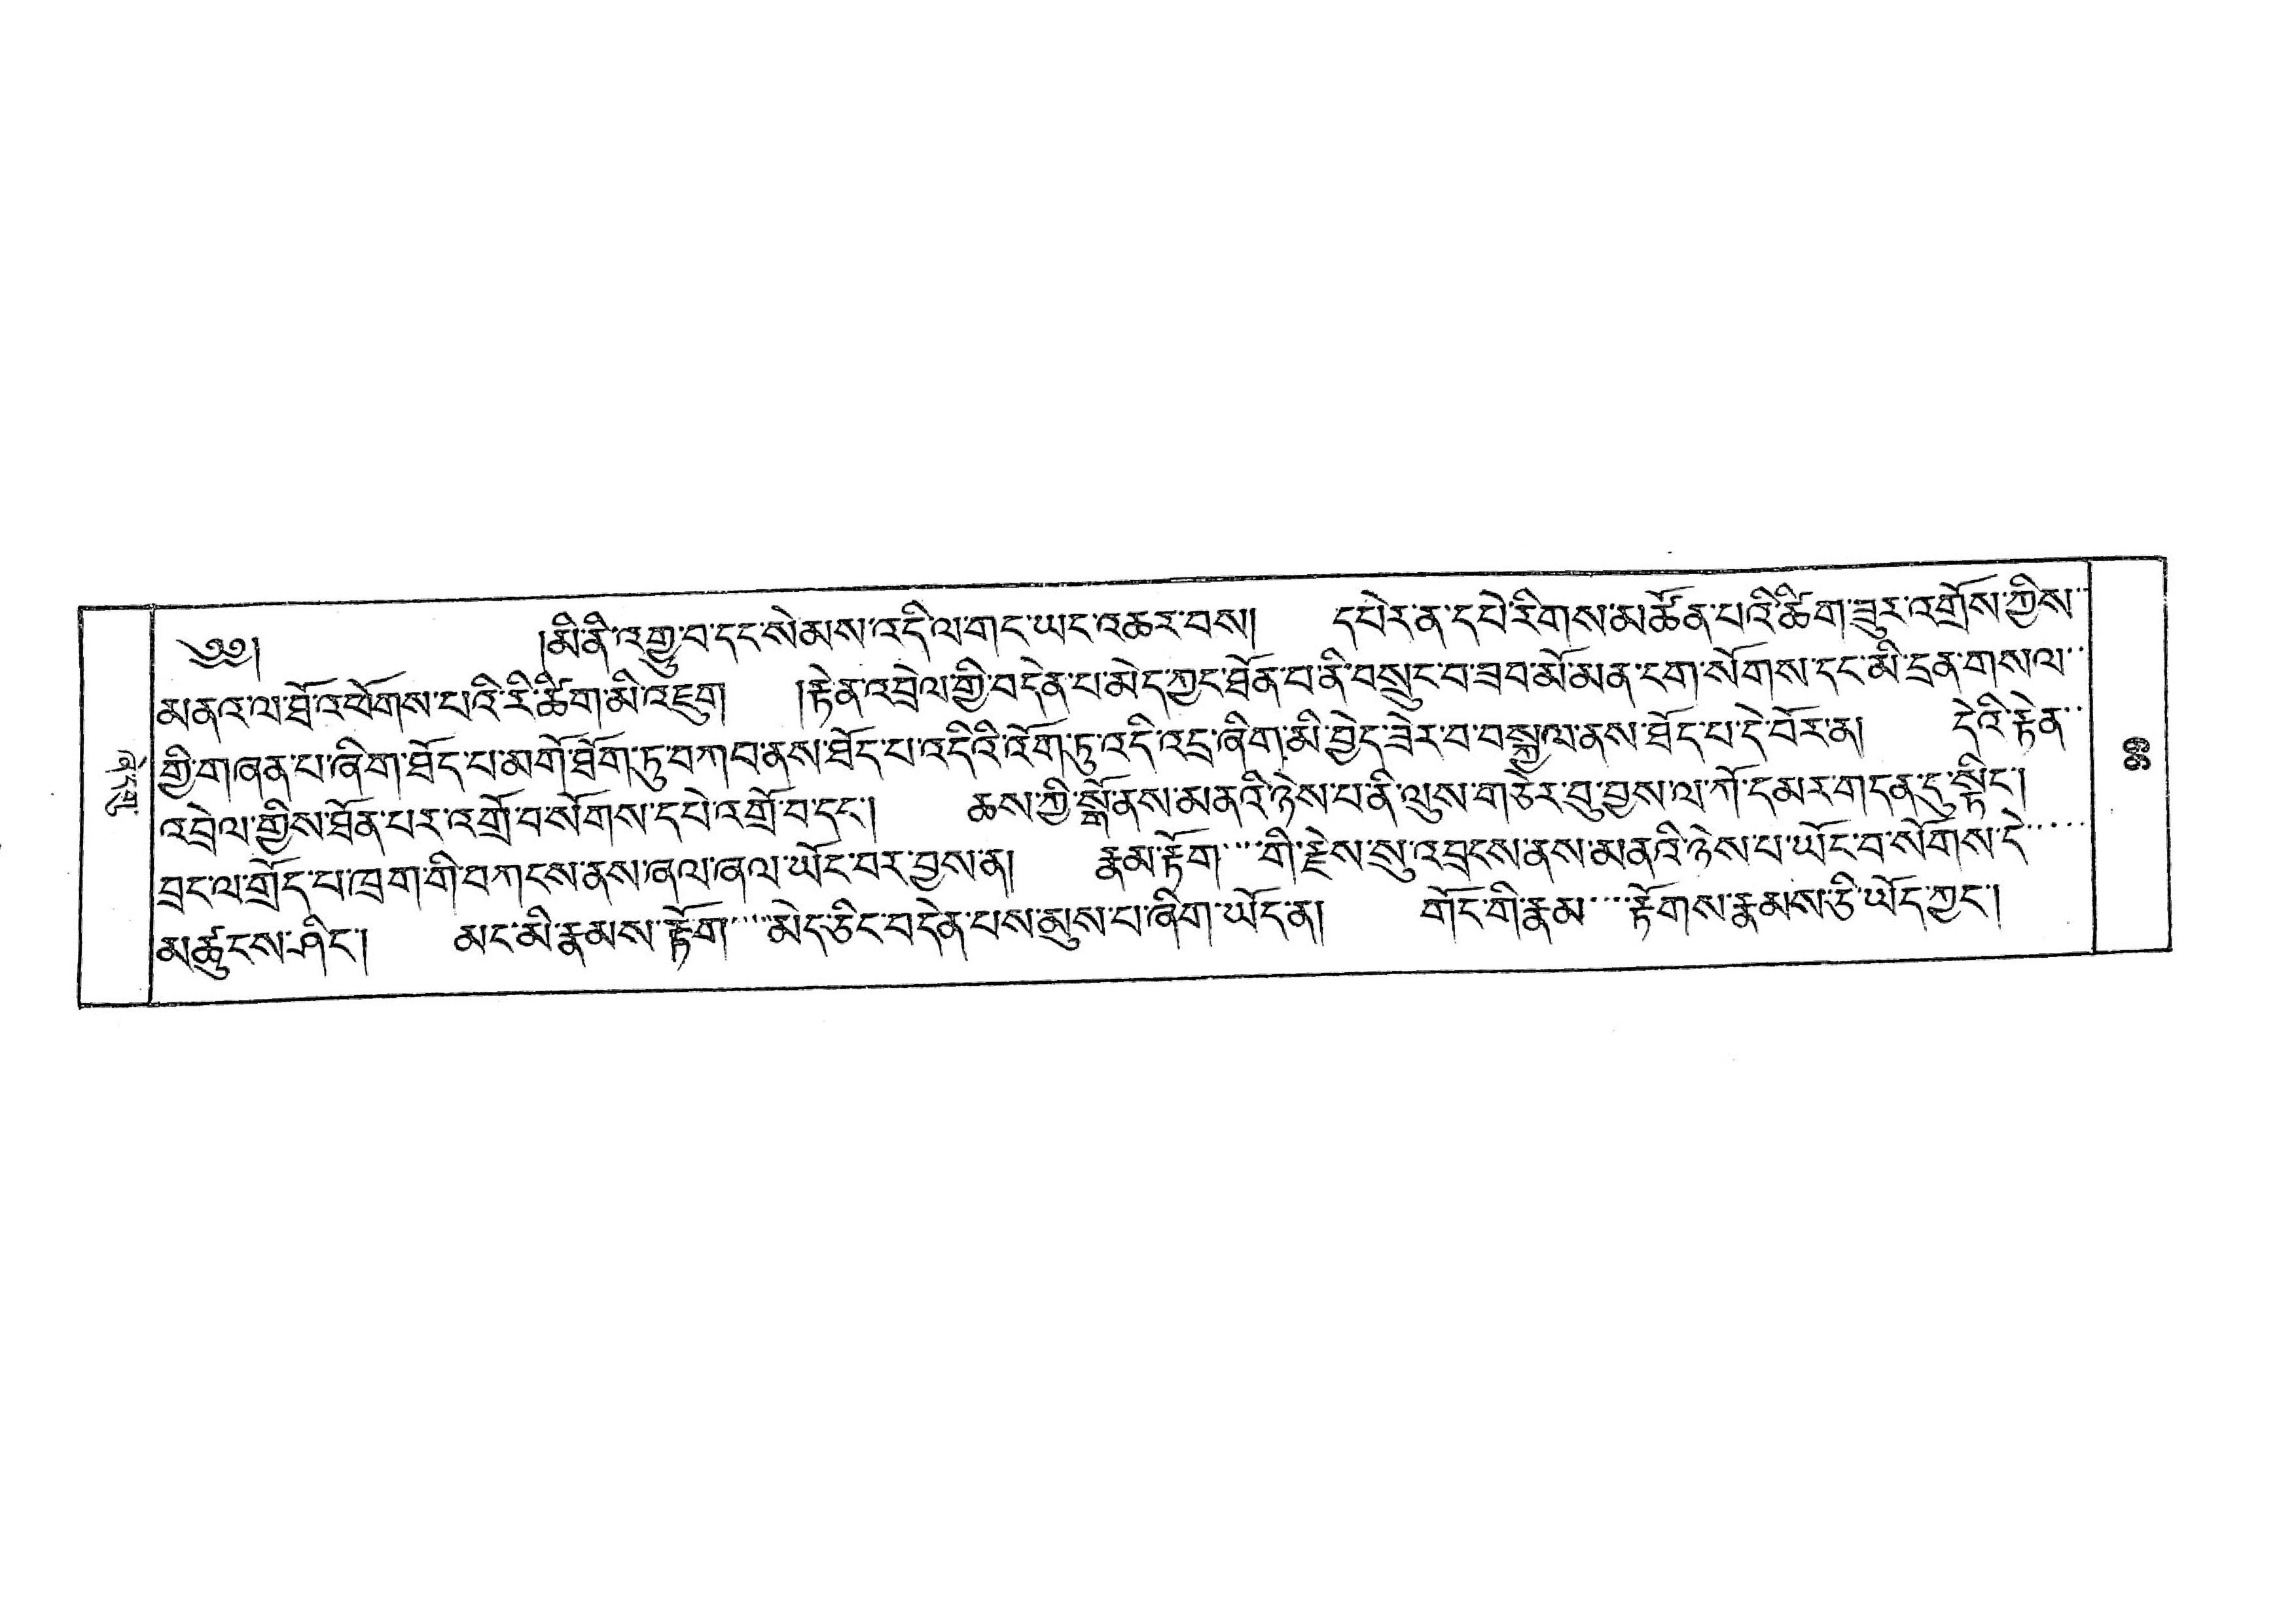ཞེ་དགུ་
༄༅།  །མི་ནི་འགྱུ་བ་དང་སེམས་འདི་ལ་གང་ཡང་འཆར་བས། དཔེར་ན་དཔེ་རིགས་མཚོན་པའི་ཚིག་ཟུར་འགྲིས་ཀྱིས་་
མནའ་ལ་ཐོ་འཕོགས་པའི་རི་ཚིག་མི་འཇུག །རྟེན་འབྲེལ་གྱི་བདེན་པ་མེད་ཀྱང་ཐོན་པ་ནི་བསྲུང་བ་ཟབ་མོ་མ་ན་ངག་སོགས་དང་མི་དྲན་གསལ་་
གྱི་གཞན་པ་ཞིག་ཐོད་པ་མགོ་ཐོག་ཏུ་བཀབ་ནས་ཐོད་པ་འདིའི་འོག་ཏུ་འདི་འདྲ་ཞིག་མི་བྱེད་ཟེར་བ་བསྐྱལ་ནས་ཐོད་པ་དེ་བོར་ན། དེའི་རྟེན་་
འབྲེལ་གྱིས་ཐོན་པར་འགྲོ་བ་སོགས་དཔེ་འགྲོ་བ་དང་། ཆས་ཀྱི་སྒོ་ནས་མནའི་ཉེས་པ་ནི་ལུས་གཅེར་བུ་བྱས་ལ་ཀོ་དམར་གདན་དུ་སྟིང་།
བྲང་ལ་གྲོད་པ་ཁྲག་གི་བཀངས་ནས་ཞལ་ཞལ་ཡོང་བར་བྱས་ན། རྣམ་རྟོག་་་་གི་རྗེས་སུ་འབྲངས་ནས་མནའི་ཉེས་པ་ཡོང་བ་སོགས་དེ་་་་་
མཚུངས་ཤིང་། མང་མི་རྣམས་རྟོག་་་་མེད་ཅིང་བདེན་པས་མུས་པ་ཞིག་ཡོད་ན། གོང་གི་རྣམ་་་་རྟོགས་རྣམས་ཅི་ཡོད་ཀྱང་།
